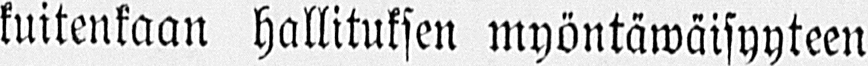kuitenkaan hallituksen myöntäwäisyyteen
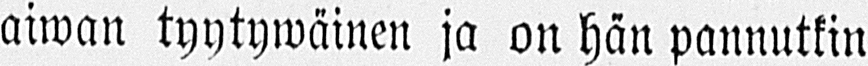aiwan tyytywäinen ja on hän pannutkin
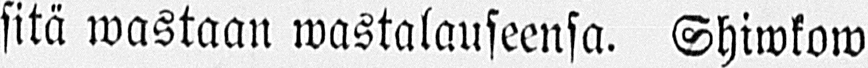sitä wastaan wastalauseensa. Shiwkow
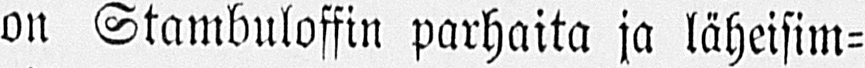on Stambuloffin parhaita ja läheisim-
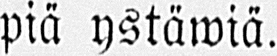piä ystäwiä.
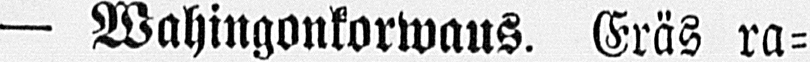— Wahingonkorwaus. Eräs ra-
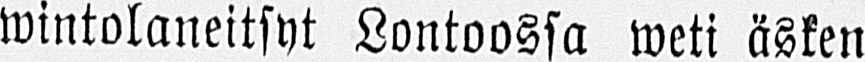wintolaneitsyt Lontoossa weti äsken
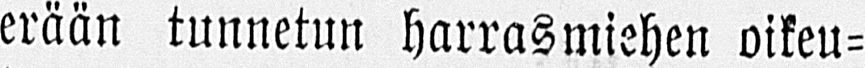erään tunnetun harrasmiehen oikeu-
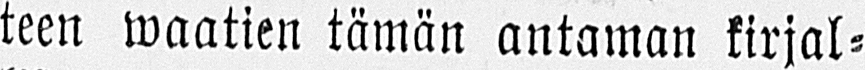teen waatien tämän antaman kirjal-
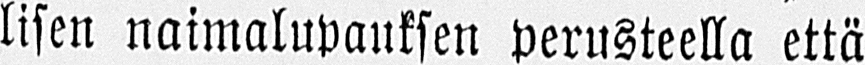lisen naimalupauksen perusteella että
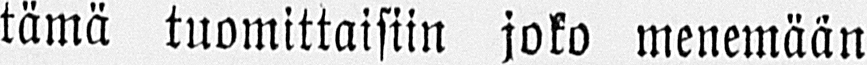tämä tuomittaisiin joko menemään
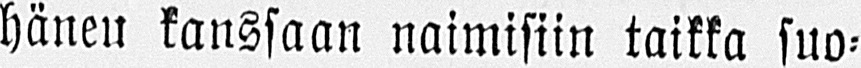häneu kanssaan naimisiin taikka suo-
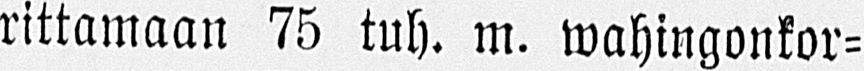rittamaan 75 tuh. m. wahingonkor-
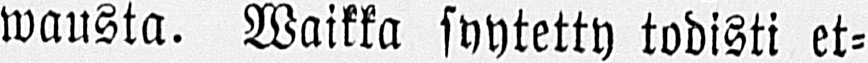wausta. Waikka syytetty todisti et-
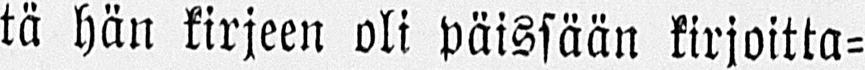tä hän kirjeen oli päissään kirjoitta-
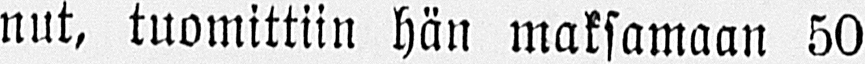nut, tuomittiin hän maksamaan 50
